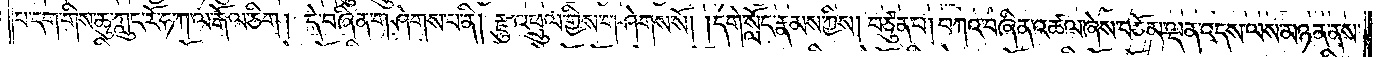པ་དག་གིས་ཆུ་ཀླུང་རོ་ཧ་ཀ་ལ་རྒོལ་ཅིག །དེ་བཞིན་གཤེགས་པ་ནི། རྫུ་འཕྲུལ་གྱིས་གཤེགས་སོ། །དགེ་སློང་རྣམས་ཀྱིས། བཙུན་པ། བཀའ་བཞིན་འཚལ་ཞེས་བཅོམ་ལྡན་འདས་ལས་མཉན་ནས་
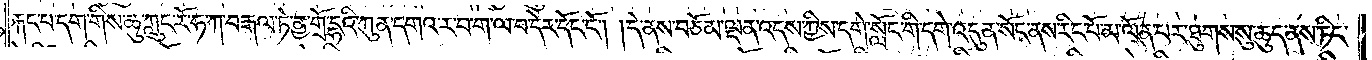རྐང་པ་དག་གིས་ཆུ་ཀླུང་རོ་ཧ་ཀ་བརྒལ་ཏེ་ནྱ་གྲོ་དྷའི་ཀུན་དགའ་ར་བ་ག་ལ་བ་དེར་དོང་ངོ༌། །དེ་ནས་བཅོམ་ལྡན་འདས་ཀྱིས་དགེ་སློང་གི་དགེ་འདུན་སོང་ནས་རིང་པོ་མ་ལོན་པར་ཐུགས་སུ་ཆུད་ནས་ཏིང་
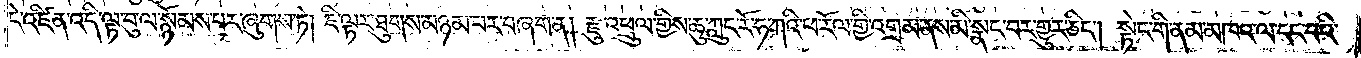ངེ་འཛིན་འདི་ལྟ་བུ་ལ་སྙོམས་པར་ཞུགས་ཏེ། ཇི་ལྟར་ཐུགས་མཉམ་པར་བཞག་ན། རྫུ་འཕྲུལ་གྱིས་ཆུ་ཀླུང་རོ་ཧ་ཀའི་ཕ་རོལ་གྱི་འགྲམ་ནས་མི་སྣང་བར་གྱུར་ཅིང༌། སྟེང་གི་ནམ་མཁའ་ལ་དང་བའི་
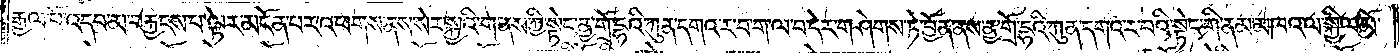རྒྱལ་པོ་འདབ་མ་བརྐྱངས་པ་ལྟར་མངོན་པར་འཕགས་ནས་སེར་སྐྱའི་གནས་ཀྱི་སྟེང་ནྱ་གྲོ་དྷའི་ཀུན་དགའ་ར་བ་ག་ལ་བ་དེར་གཤེགས་ཏེ་བྱོན་ནས་ནྱ་གྲོ་དྷའི་ཀུན་དགའ་ར་བའི་སྟེང་གི་ནམ་མཁའ་ལ་སྐྱིལ་མོ་
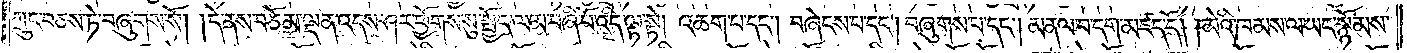ཀྲུང་བཅས་ཏེ་བཞུགས་སོ། །དེ་ནས་བཅོམ་ལྡན་འདས་ཤར་ཕྱོགས་སུ་སྤྱོད་ལམ་བཞི་པོ་འདི་ལྟ་སྟེ། འཆག་པ་དང༌། བཞེངས་པ་དང༌། བཞུགས་པ་དང༌། མནལ་བ་དག་མཛད་དོ། །མེའི་ཁམས་ལ་ཡང་སྙོམས་
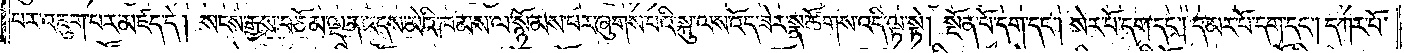པར་འཇུག་པར་མཛད་དེ། སངས་རྒྱས་བཅོམ་ལྡན་འདས་མེའི་ཁམས་ལ་སྙོམས་པར་ཞུགས་པའི་སྐུ་ལས་འོད་ཟེར་སྣ་ཚོགས་འདི་ལྟ་སྟེ། སྔོན་པོ་དག་དང༌། སེར་པོ་དག་དང༌། དམར་པོ་དག་དང༌། དཀར་པོ་
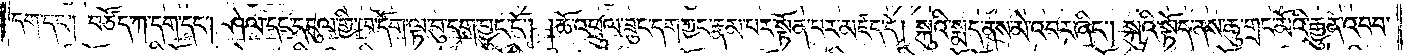དག་དང༌། བཙོད་ཀ་དག་དང༌། ཤེལ་དང་དངུལ་གྱི་ཁ་དོག་ལྟ་བུ་དག་བྱུང་ངོ༌། །ཆོ་འཕྲུལ་ཟུང་དག་ཀྱང་རྣམ་པར་སྟོན་པར་མཛད་དེ། སྐུའི་སྨད་ནས་མེ་འབར་ཞིང༌། སྐུའི་སྟོད་ནས་ཆུ་གྲང་མོའི་རྒྱུན་འབབ་
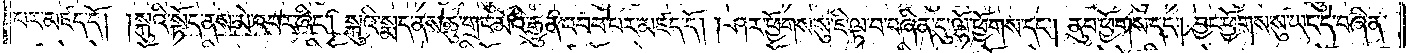པར་མཛད་དོ། །སྐུའི་སྟོད་ནས་མེ་འབར་ཞིང༌། སྐུའི་སྨད་ནས་ཆུ་གྲང་མོའི་རྒྱུན་འབབ་པར་མཛད་དོ། །ཤར་ཕྱོགས་སུ་ཇི་ལྟ་བ་བཞིན་དུ་ལྷོ་ཕྱོགས་དང༌། ནུབ་ཕྱོགས་དང༌། བྱང་ཕྱོགས་སུ་ཡང་དེ་བཞིན་
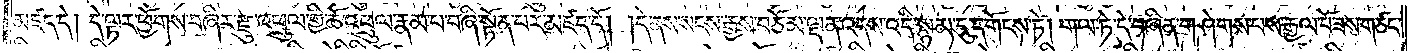མཛད་དེ། དེ་ལྟར་ཕྱོགས་བཞིར་རྫུ་འཕྲུལ་གྱི་ཆོ་འཕྲུལ་རྣམ་པ་བཞི་སྟོན་པར་མཛད་དོ། །དེ་ནས་སངས་རྒྱས་བཅོམ་ལྡན་འདས་འདི་སྙམ་དུ་དགོངས་ཏེ། གལ་ཏེ་དེ་བཞིན་གཤེགས་པས་རྒྱལ་པོ་ཟས་གཙང་
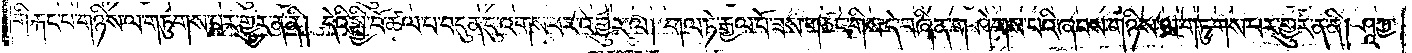གི་རྐང་པ་གཉིས་ལ་གཏུགས་པར་གྱུར་ན་ནི། དེའི་སྤྱི་བོ་ཚལ་བ་བདུན་དུ་འགས་པར་འགྱུར་ལ། གལ་ཏེ་རྒྱལ་པོ་ཟས་གཙང་གིས་དེ་བཞིན་གཤེགས་པའི་ཞབས་གཉིས་ལ་གཏུགས་པར་གྱུར་ན་ནི། ཤཱཀྱ་
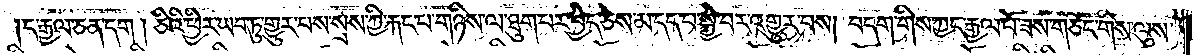ང་རྒྱལ་ཅན་དག །ཅིའི་ཕྱིར་ཡབ་ཏུ་གྱུར་པས་སྲས་ཀྱི་རྐང་པ་གཉིས་ལ་ཐུག་པར་བྱེད་ཅེས་མ་དད་པ་སྐྱེ་བར་འགྱུར་བས། བདག་གིས་ཀྱང་རྒྱལ་པོ་ཟས་གཙང་གིས་ལུས་
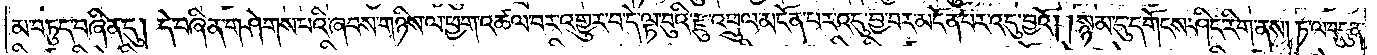མ་བཏུད་བཞིན་དུ། དེ་བཞིན་གཤེགས་པའི་ཞབས་གཉིས་ལ་ཕྱག་འཚལ་བར་འགྱུར་བ་དེ་ལྟ་བུའི་རྫུ་འཕྲུལ་མངོན་པར་འདུ་བྱ་བར་མངོན་པར་འདུ་བྱའོ། །སྙམ་དུ་དགོངས་ཤིང་རིག་ནས། ཏ་ལ་བདུན་
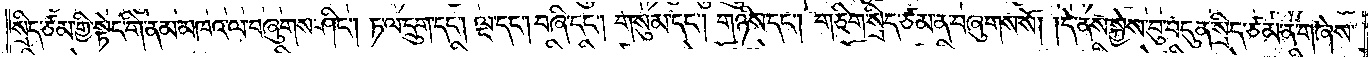སྲིད་ཙམ་གྱི་སྟེང་གི་ནམ་མཁའ་ལ་བཞུགས་ཤིང༌། ཏ་ལ་དྲུག་དང༌། ལྔ་དང༌། བཞི་དང༌། གསུམ་དང༌། གཉིས་དང༌། གཅིག་སྲིད་ཙམ་ན་བཞུགས་སོ། །དེ་ནས་སྐྱེས་བུ་བདུན་སྲིད་ཙམ་ན་གཞེས་
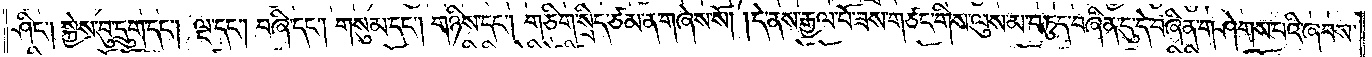ཤིང༌། སྐྱེས་བུ་དྲུག་དང༌། ལྔ་དང༌། བཞི་དང༌། གསུམ་དང༌། གཉིས་དང༌། གཅིག་སྲིད་ཙམ་ན་གཞེས་སོ། །དེ་ནས་རྒྱལ་པོ་ཟས་གཙང་གིས་ལུས་མ་བཏུད་བཞིན་དུ་དེ་བཞིན་གཤེགས་པའི་ཞབས་
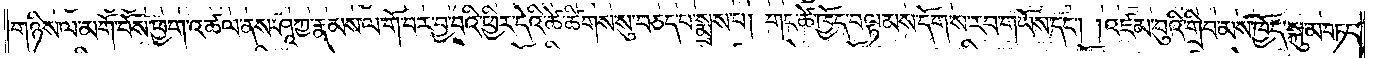གཉིས་ལ་མགོ་བོས་ཕྱག་འཚལ་ནས་ཤཱཀྱ་རྣམས་ལ་གོ་བར་བྱ་བའི་ཕྱིར་དེའི་ཚེ་ཚིགས་སུ་བཅད་པ་སྨྲས་པ། གང་ཚེ་ཁྱོད་བལྟམས་དོག་ས་རབ་གཡོས་དང༌། །འཛམ་བུའི་གྲིབ་མས་ཁྱོད་སྐུ་མ་བཏང་
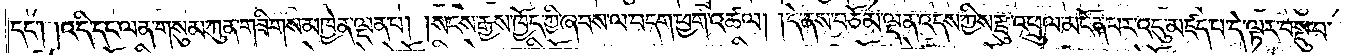དང༌། །འདི་དང་ལན་གསུམ་ཀུན་གཟིགས་མཁྱེན་ལྡན་པ། །སངས་རྒྱས་ཁྱོད་ཀྱི་ཞབས་ལ་བདག་ཕྱག་འཚལ། །དེ་ནས་བཅོམ་ལྡན་འདས་ཀྱིས་རྫུ་འཕྲུལ་མངོན་པར་འདུ་མཛད་པ་དེ་ལྟར་བསྡུ་བ་
